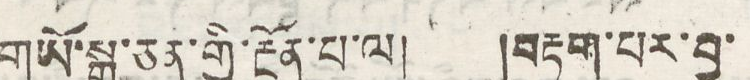གཡོ་སྒྱུ་ཅན་གྱི་རྔོན་པ་ལ། །བརྟག་པར་བྱ་
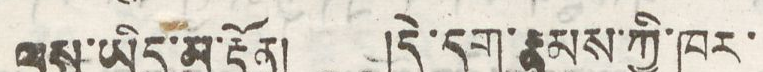ལས་ཡིད་མ་རྟོན། །དེ་དག་རྣམས་ཀྱི་ཁར་
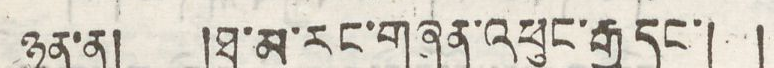ཉན་ན། །ཐ་མ་རང་གཞན་འཕུང་རྒྱུ དང་། །
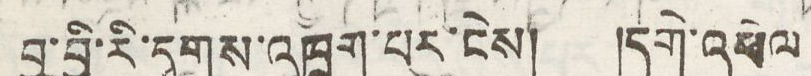བྱ་བྱི་རི་དྭགས་འཁྲུག་པར་ངེས། །དགེ་འཕེལ
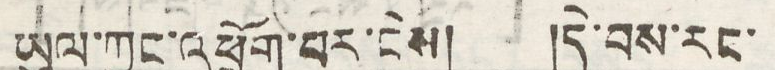ཡུལ་ཀྱང་འཕྲོག་པར་ངེས། །དེ་བས་རང་
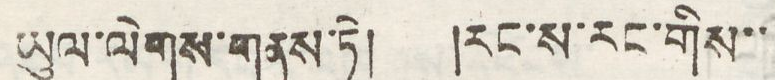ཡུལ་ལེགས་གནས་ཏེ། །རང་ས་རང་གིས་་
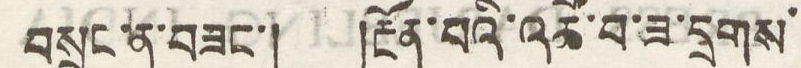བསྲུང་ན་བཟང་། །རྔོན་པའི་འཚོ་བ་ཟ་དྲགས་
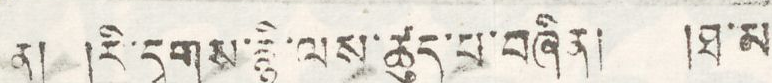ན། །རི་དྭགས་རྙི་ལས་ཚུད་པ་བཞིན། །ཐ་མ་
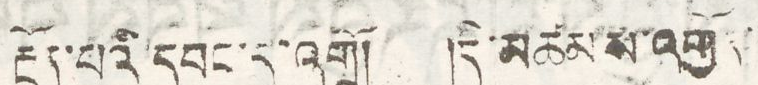རྔོན་པའི་དབང་དུ་འགྲོ། །དེ་མཚམས་འགྱོད་
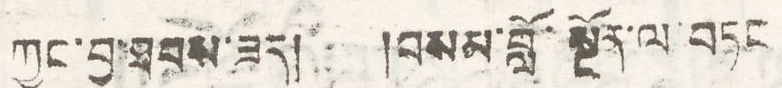ཀྱང་བྱ་ཐབས་ཟད། །བསམ་བློ་སྔོན་ལ་བཏང
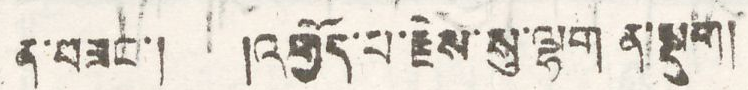ན་བཟང་། །འགྱོད་པ་རྗེས་སུ་ལྷག ན་སྡུག།
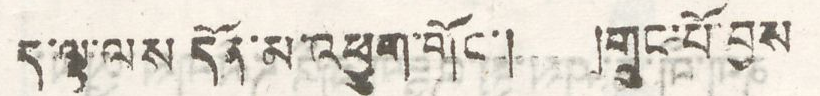ད་ལྟ་ལས དོན་མ་འཕྱུག་གོང་། །གྲུང་པོ་བྱས
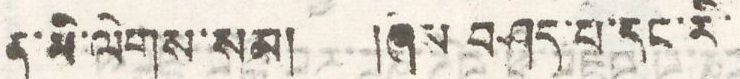མ་ནི་ལེགས་སམ། །ཞེས བཤད་པ་དང་རི་
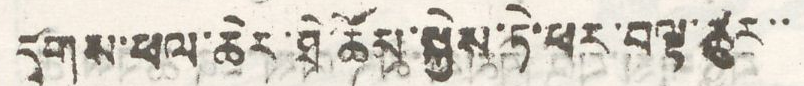དྭགས་ཕལ་ཆེར་ཐེ་ཚོས་སྐྱེས་ཏེ་ཕར་བལྟ་ཚུར་་
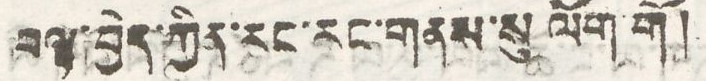བལྟ་བྱེད་ཀྱིན་རང་རང་གནས་སུ ལོག་གོ།
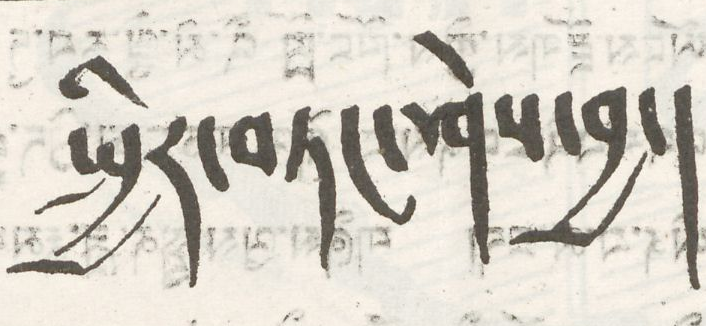སྤྱིར་བཏང་ཤེས་བྱ།
